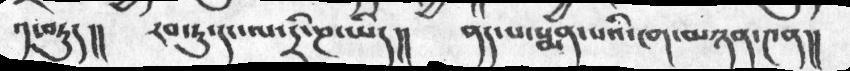༡་བཏུད།།     རབ་ཏུ་དང་ལ་དྲི་ཎ་ཡིད།།    ནད་པ་སྨན་པའི་ངག་མཉན་༤ན།།
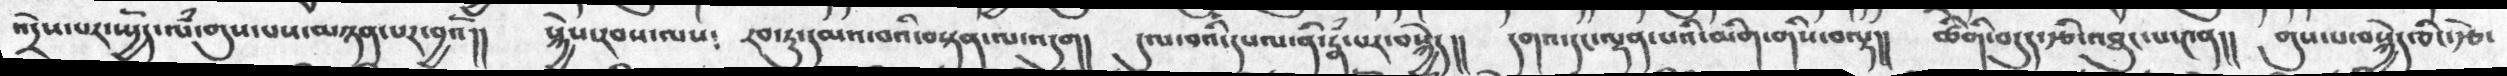འདྲེས་པར་ཡྱོད་ལཾ་གུས་པས་མཉན་པཔར་བྱའོ།།   སྐྱེས་རབས་ལས༴     རབ་ཏུ་དམའ་བའི་བསྟན་ལ་འདུག།   དུལ་བའི་དཔལ་ནི་རྣཾ་པར་བསྐྱེད།།   དགའ་དང་ལྡན་པའི་མིག་གིས་བལྟ།།    ཚིགི་བདུད་རྩི་འཐུང་པ་༤ན།།    གུས་པ་བསྐྱེད་ཅིངརྩེ་
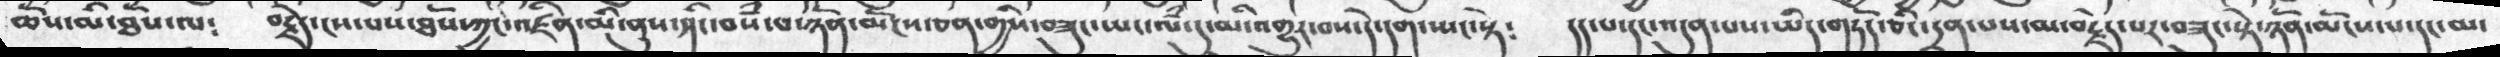ཆོས་མི་ཐོས་ལ༴   བརྗེད་ངས་པས་ཐོས་ཀྱང་འཛིན་མི་ནུས་ཤིང་བསཾ་པ་ཉོན་མོངས་ཅན་གྱིས་བཟུང་ཡང་ལཾ་དུ་མི་འགྱུར་བས་དེ་དག་ཡང་སྟེ༴   དད་པ་དང་འདུན་པས་ཡིད་གཏོད་ཅིང་དྲན་པས་མ་བརྗེད་པར་བཟུང་སྟེ་ཉོན་མོངས་པ་དང་མ་
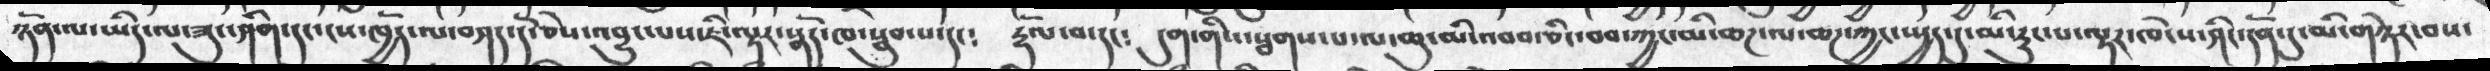ཉོན་ལ་ཡིད་ལ་ཟུང་ཤིག་དང་ངས་ཁྱོད་ལ་བཤད་དོ་ཅེས་འབྱུང་པས་ཇི་ལྟར་སྣོད་ཁ་སྦུབ་པ་དང༴     རྟོལ་བ་དང༴   དུག་གིས་སྦགས་པ་ལ་ཆུ་མི་འབབ་ཅིང་བབ་ཀྱང་མི་ཆཌ་ལ་ཆཌ་ཀྱང་ཡྱད་དུ་མི་རུང་པ་ལྟར་ཁེངས་ཤིང་དོན་དུ་མི་གཉེར་བས་
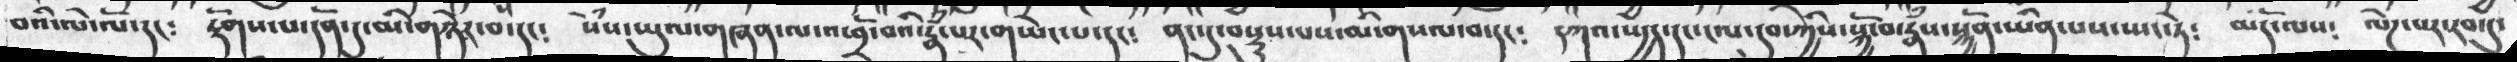བའི་ལེ་ལོ་དང༴  རྟོགས་པ་དོན་དུ་མི་གཉེར་བ་དང༴    སེཾས་ཡུལ་གཞན་ལ་འཕྲོ་བའི་རྣཾ་པར་གཡེང་པ་དང༴     ནང་དུ་བསྡུས་པས་མི་གསལ་བ་དང༴   དཀའ་ཡྱད་དང་ངལ་དུབ་ཀྱིས་སྐྱོ་བ་རྣཾས་སྐྱོན་ཡིན་པས་ཡང་ཏེ༴   མདོ་ལས༴   ལེཌ་པར་རབ་དུ་
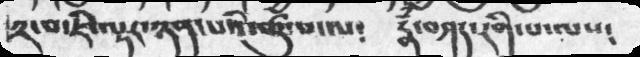༢་པ་ཇི་ལྟར་ཉན་པའི་ཚུལ་ལ༴   རྣཾ་བཤད་རིག་པ་ལས།
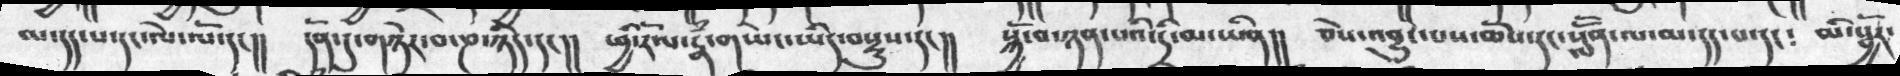མ་དད་པ་དང་ལེ་ལོ་།།   དོན་དུ་གཉེར་བ་ཎ་ཉིད་དང།།  ཕྱི་རོལ་རྣཾ་གཡེང་ཡིད་བསྡུས་དང།།  སྐྱོ་བ་ཉན་པའི་དྲི་མ་ཡིན།།   ཅེས་འབྱུང་པས་ཆོས་དང་སློོན་ལ་མ་དད་པ་དང༴  མི་སྦྱོར་
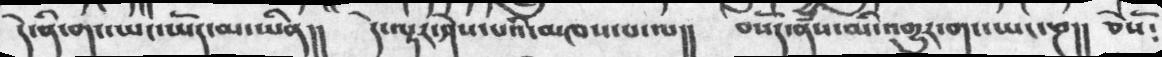དེ་ནི་གང་ཡང་ཡོད་མ་ཡིན།།     དེ་ལྟར་ཤེས་པའི་མཁས་པ་ལ།།     བསོད་ནྃས་མི་འགྱུར་གང་ཡང་ཎ།།   ཅེསོ༴
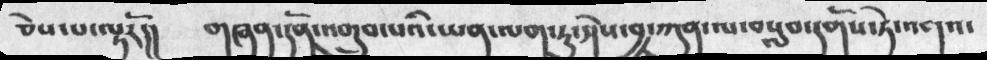ཅེས་པ་ལྟརོ།།     གཞན་དོན་འགྲུབ་པའི་ཡན་ལག་ཏུ་ཤེས་བྱ་ཀུན་ལ་བསླབ་དགོས་ཏེ་འགའ་
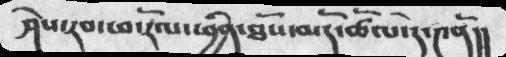ཤེས་རབ་ཕ་རོལ་ཕྱིན་ཐོས་མདོ་ཚོལ་དེ་༤ནོ།།
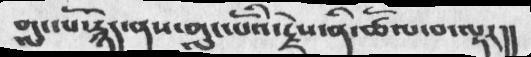གླང་པོ་རྙེད་ནས་གླང་པོའི་རྗེས་ནི་ཚོལ་བ་ལྟར།།
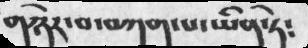གཉེར་བ་བཀག་པ་ཡིན་ཏེ༴
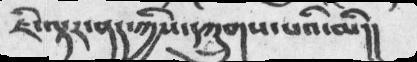ཇི་ལྟར་ནད་ཀྱིས་དཀྲུགས་པའི་མི།།
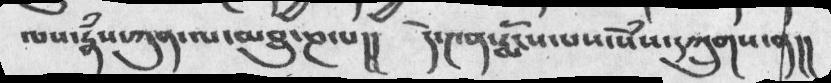ལས་རྣྃས་ཀུན་ལ་མཐུ་ཎ་པ།།    དེ་༤ན་རྨོངས་པས་སེྃས་དཀྲུགས་ན།།
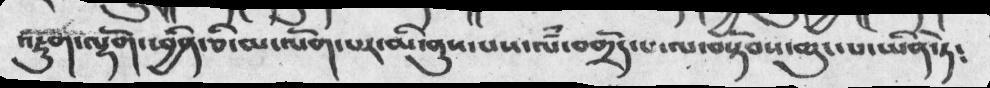འཇུག་ལྡོག་ཕྱིན་ཅི་མ་ལོག་པར་མི་ནུས་པས་ལཾ་བགྲོད་པ་ལ་བསྟོབས་ཆུང་པ་ཡིན་ཏེ༴
